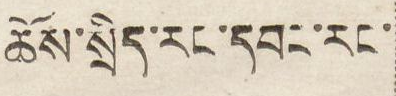ཆོས་སྲིད་རང་དབང་རང་
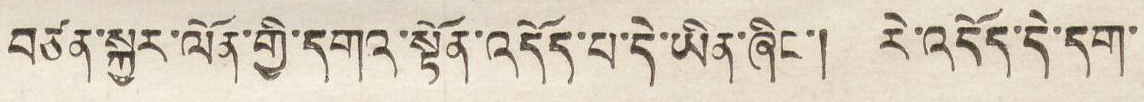བཙན་སྐྱར་ལོན་གྱི་དགའ་སྟོན་འདོད་པ་དེ་ཡིན་ཞིང་། རེ་འདོད་དེ་དག་
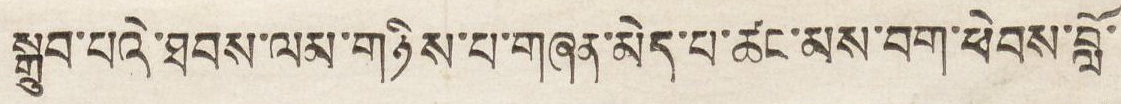སྒྲུབ་པའི་ཐབས་ལམ་གཉིས་པ་གཞན་མེད་པ་ཚང་མས་བག་ཕེབས་ཟློ་
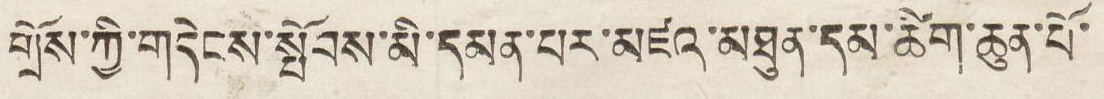གྲོས་ཀྱི་གདེངས་སྤོབས་མི་དམན་པར་མཛའ་མཐུན་དམ་ཚིག་ཆུན་པོ་
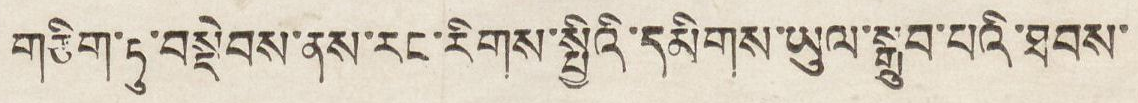གཅིག་ཏུ་བསྡེབས་ནས་རང་རིགས་སྤྱིའི་དམིགས་ཡུལ་སྒྲུབ་པའི་ཐབས་
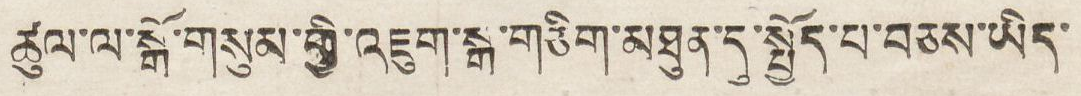ཚུལ་སྒོ་གསུམ་གྱི་འཇུག་སྒ་གཅིག་མཐུན་དུ་སྤྱོད་པ་བཅས་ཡིད་
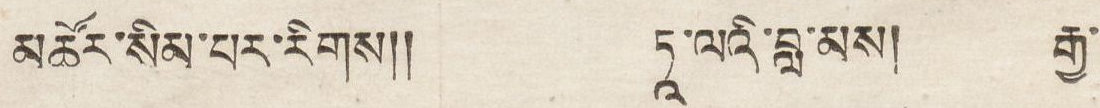མཚོར་སིམ་པར་རིགས།། ཏཱ་ལའི་བླ་མས། རྒྱ་
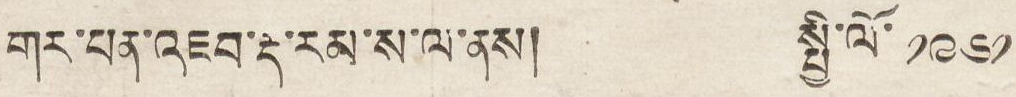གར་པན་འཇམ་རྡ་རམ་ས་ལ་ནས། སྤྱི་ལོ་ ༡༩༦༡
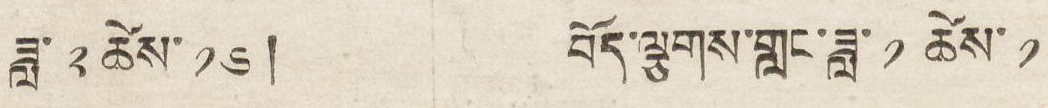ཟླ་ ༢ ཚེས་ ༡༦། བོད་ལྕགས་གླང་ཟླ་ ༡ ཚེས་ ༡
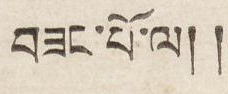བཟང་པོ་ལ། །
